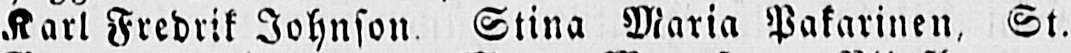Karl Fredrik Johnson. Stina Maria Pakarinen. St.
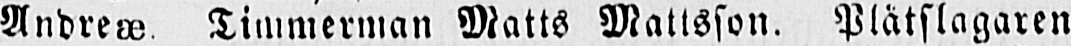Andreæ Timmerman Matts Mattsson. Plätslagaren
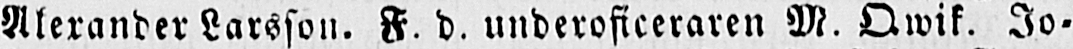Alexander Larson. F. d. underoficeraren M. Owik. Jo-
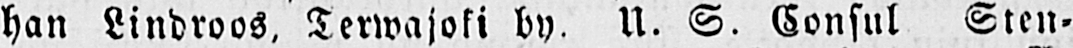han Lindroos, Terwajoki by, N. S. Consul Sten-
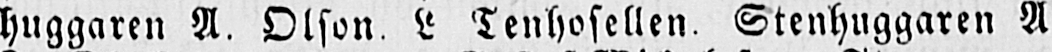huggaren A. Olson L Tenhosellen Stenhuggaren A.
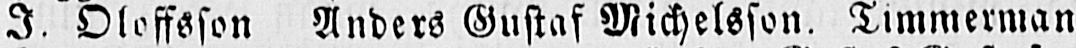I. Oloffsson Anders Gustaf Michelsson. Timmerman
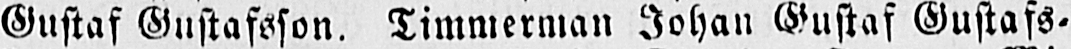Gustaf Gustafsson. Timmerman Johan Gustaf Gustafs-
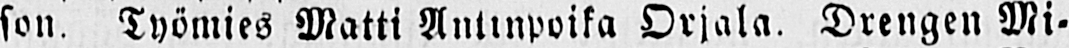son. Työmies Matti Antinpoika Orjala. Drengen Mi-
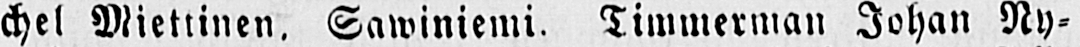chel Miettinen. Sawiniemi. Timmerman Johan Ny-
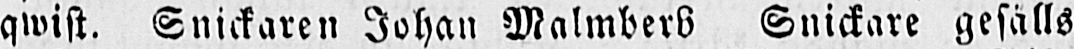qwist. Snickaren Johan Malmberg Snickare gesälls
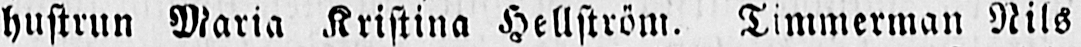hustrun Maria Kristina Hellström. Timmerman Nils
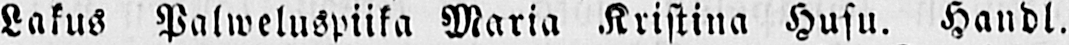Lakus Palweluspiika Maria Kristina Husu. Handl.
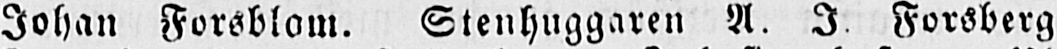Johan Forsblom. Stenhuggaren A. I. Forsberg
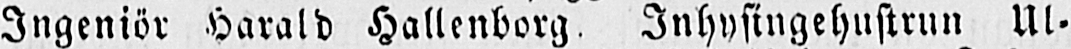Ingeniör Harald Hallenborg Inhysingehustrun Ul-
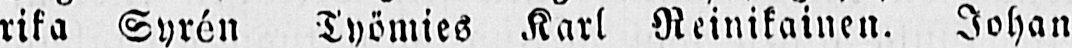rika Syrén Työmies Karl Reinikainen. Johan
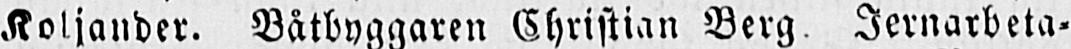Koljander. Båtbyggaren Christian Berg. Jernarbeta-
